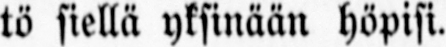tö siellä yksinään höpisi.
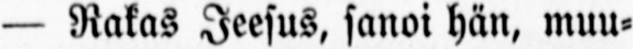— Rakas Jeesus, sanoi hän, muu-
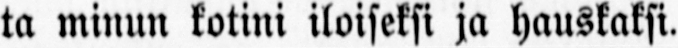ta minun kotini iloiseksi ja hauskaksi.
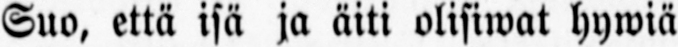Suo, että isä ja äiti olisiwat hywiä
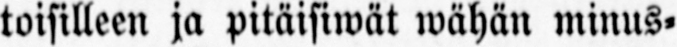toisilleen ja pitäisiwät wähän minus-
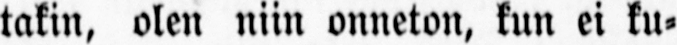takin, olen niin onneton, kun ei ku-
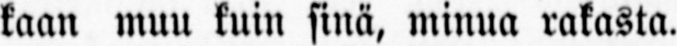kaan muu kuin sinä, minua rakasta.
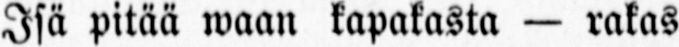Isä pitää waan kapakasta - rakas
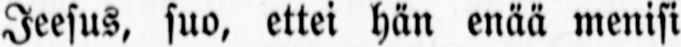Jeesus, suo, ettei hän enää menisi
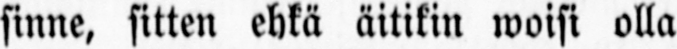sinne, sitten ehkä äitikin woisi olla
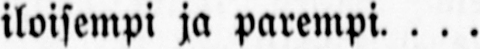iloisempi ja parempi....
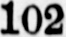102
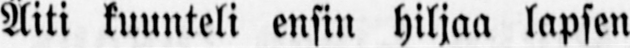Äiti kuunteli ensin hiljaa lapsen
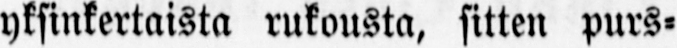yksinkertaista rukousta, sitten purs-
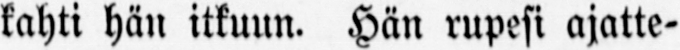kahti hän itkuun. Hän rupesi ajatte-
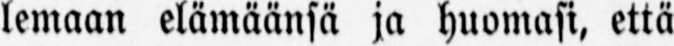lemaan elämäänsä ja huowasi, että
